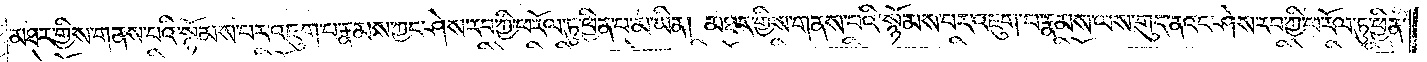མཐར་གྱིས་གནས་པའི་སྙོམས་པར་འཇུག་པ་རྣམས་ཀྱང་ཤེས་རབ་ཀྱི་ཕ་རོལ་ཏུ་ཕྱིན་པ་མ་ཡིན། མཐར་གྱིས་གནས་པའི་སྙོམས་པར་འཇུག་པ་རྣམས་ལས་གུད་ནའང་ཤེས་རབ་ཀྱི་ཕ་རོལ་ཏུ་ཕྱིན་
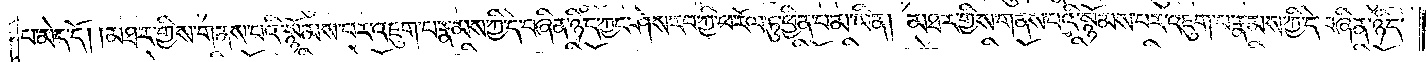པ་མེད་དོ། །མཐར་གྱིས་གནས་པའི་སྙོམས་པར་འཇུག་པ་རྣམས་ཀྱི་དེ་བཞིན་ཉིད་ཀྱང་ཤེས་རབ་ཀྱི་ཕ་རོལ་ཏུ་ཕྱིན་པ་མ་ཡིན། མཐར་གྱིས་གནས་པའི་སྙོམས་པར་འཇུག་པ་རྣམས་ཀྱི་དེ་བཞིན་ཉིད་
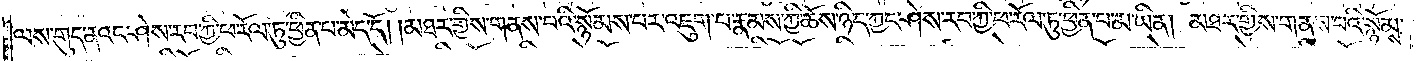ལས་གུད་ནའང་ཤེས་རབ་ཀྱི་ཕ་རོལ་ཏུ་ཕྱིན་པ་མེད་དོ། །མཐར་གྱིས་གནས་པའི་སྙོམས་པར་འཇུག་པ་རྣམས་ཀྱི་ཆོས་ཉིད་ཀྱང་ཤེས་རབ་ཀྱི་ཕ་རོལ་ཏུ་ཕྱིན་པ་མ་ཡིན། མཐར་གྱིས་གནས་པའི་སྙོམས་
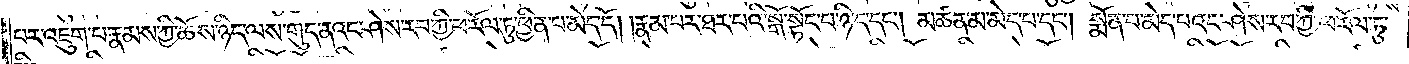པར་འཇུག་པ་རྣམས་ཀྱི་ཆོས་ཉིད་ལས་གུད་ནའང་ཤེས་རབ་ཀྱི་ཕ་རོལ་ཏུ་ཕྱིན་པ་མེད་དོ། །རྣམ་པར་ཐར་པའི་སྒོ་སྟོང་པ་ཉིད་དང༌། མཚན་མ་མེད་པ་དང༌། སྨོན་པ་མེད་པའང་ཤེས་རབ་ཀྱི་ཕ་རོལ་ཏུ་
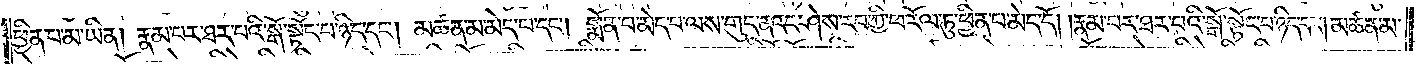ཕྱིན་པ་མ་ཡིན། རྣམ་པར་ཐར་པའི་སྒོ་སྟོང་པ་ཉིད་དང༌། མཚན་མ་མེད་པ་དང༌། སྨོན་པ་མེད་པ་ལས་གུད་ནའང་ཤེས་རབ་ཀྱི་ཕ་རོལ་ཏུ་ཕྱིན་པ་མེད་དོ། །རྣམ་པར་ཐར་པའི་སྒོ་སྟོང་པ་ཉིད་དང༌། མཚན་མ་
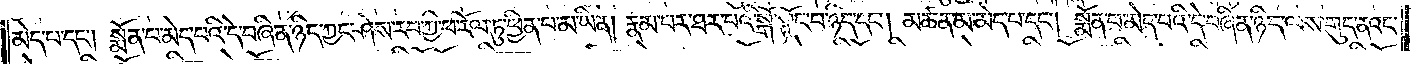མེད་པ་དང༌། སྨོན་པ་མེད་པའི་དེ་བཞིན་ཉིད་ཀྱང་ཤེས་རབ་ཀྱི་ཕ་རོལ་ཏུ་ཕྱིན་པ་མ་ཡིན། རྣམ་པར་ཐར་པའི་སྒོ་སྟོང་པ་ཉིད་དང༌། མཚན་མ་མེད་པ་དང༌། སྨོན་པ་མེད་པའི་དེ་བཞིན་ཉིད་ལས་གུད་ནའང་
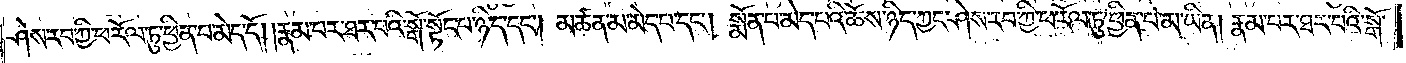ཤེས་རབ་ཀྱི་ཕ་རོལ་ཏུ་ཕྱིན་པ་མེད་དོ། །རྣམ་པར་ཐར་པའི་སྒོ་སྟོང་པ་ཉིད་དང༌། མཚན་མ་མེད་པ་དང༌། སྨོན་པ་མེད་པའི་ཆོས་ཉིད་ཀྱང་ཤེས་རབ་ཀྱི་ཕ་རོལ་ཏུ་ཕྱིན་པ་མ་ཡིན། རྣམ་པར་ཐར་པའི་སྒོ་
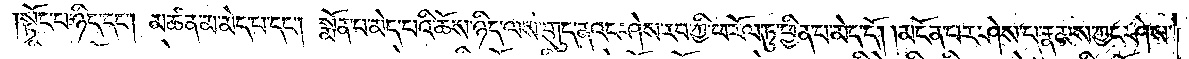སྟོང་པ་ཉིད་དང༌། མཚན་མ་མེད་པ་དང༌། སྨོན་པ་མེད་པའི་ཆོས་ཉིད་ལས་གུད་ནའང་ཤེས་རབ་ཀྱི་ཕ་རོལ་ཏུ་ཕྱིན་པ་མེད་དོ། །མངོན་པར་ཤེས་པ་རྣམས་ཀྱང་ཤེས་
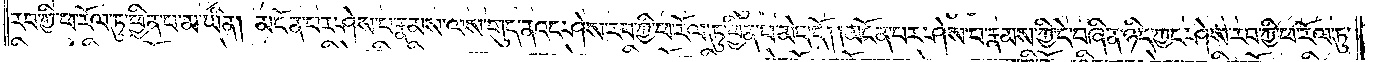རབ་ཀྱི་ཕ་རོལ་ཏུ་ཕྱིན་པ་མ་ཡིན། མངོན་པར་ཤེས་པ་རྣམས་ལས་གུད་ནའང་ཤེས་རབ་ཀྱི་ཕ་རོལ་ཏུ་ཕྱིན་པ་མེད་དོ། །མངོན་པར་ཤེས་པ་རྣམས་ཀྱི་དེ་བཞིན་ཉིད་ཀྱང་ཤེས་རབ་ཀྱི་ཕ་རོལ་ཏུ་
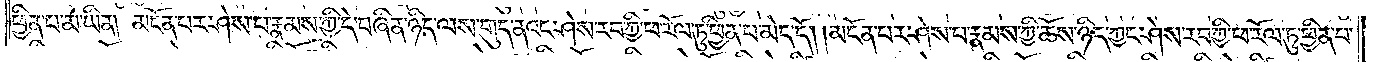ཕྱིན་པ་མ་ཡིན། མངོན་བར་ཤེས་པ་རྣམས་ཀྱི་དེ་བཞིན་ཉིད་ལས་གུད་ནའང་ཤེས་རབ་ཀྱི་ཕ་རོལ་ཏུ་ཕྱིན་པ་མེད་དོ། །མངོན་པར་ཤེས་པ་རྣམས་ཀྱི་ཆོས་ཉིད་ཀྱང་ཤེས་རབ་ཀྱི་ཕ་རོལ་ཏུ་ཕྱིན་པ་
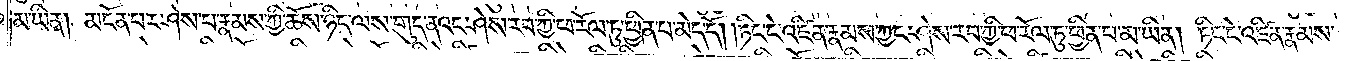མ་ཡིན། མངོན་པར་ཤེས་པ་རྣམས་ཀྱི་ཆོས་ཉིད་ལས་གུད་ནའང་ཤེས་རབ་ཀྱི་ཕ་རོལ་ཏུ་ཕྱིན་པ་མེད་དོ། །ཏིང་ངེ་འཛིན་རྣམས་ཀྱང་ཤེས་རབ་ཀྱི་ཕ་རོལ་ཏུ་ཕྱིན་པ་མ་ཡིན། ཏིང་ངེ་འཛིན་རྣམས་
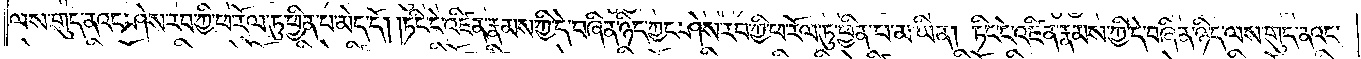ལས་གུད་ནའང་ཤེས་རབ་ཀྱི་ཕ་རོལ་ཏུ་ཕྱིན་པ་མེད་དོ། །ཏིང་ངེ་འཛིན་རྣམས་ཀྱི་དེ་བཞིན་ཉིད་ཀྱང་ཤེས་རབ་ཀྱི་ཕ་རོལ་ཏུ་ཕྱིན་པ་མ་ཡིན། ཏིང་ངེ་འཛིན་རྣམས་ཀྱི་དེ་བཞིན་ཉིད་ལས་གུད་ནའང་
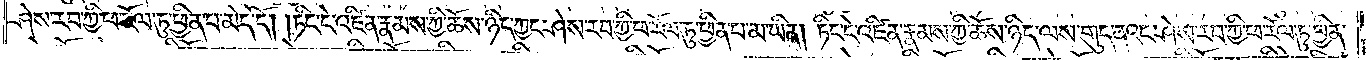ཤེས་རབ་ཀྱི་ཕ་རོལ་ཏུ་ཕྱིན་པ་མེད་དོ། །ཏིང་ངེ་འཛིན་རྣམས་ཀྱི་ཆོས་ཉིད་ཀྱང་ཤེས་རབ་ཀྱི་ཕ་རོལ་ཏུ་ཕྱིན་པ་མ་ཡིན། ཏིང་ངེ་འཛིན་རྣམས་ཀྱི་ཆོས་ཉིད་ལས་གུད་ནའང་ཤེས་རབ་ཀྱི་ཕ་རོལ་ཏུ་ཕྱིན་
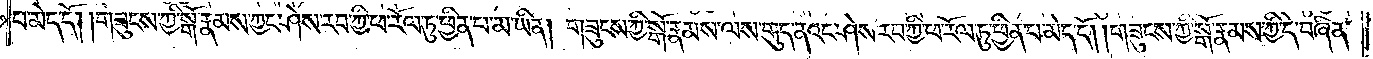པ་མེད་དོ། །གཟུངས་ཀྱི་སྒོ་རྣམས་ཀྱང་ཤེས་རབ་ཀྱི་ཕ་རོལ་ཏུ་ཕྱིན་པ་མ་ཡིན། གཟུངས་ཀྱི་སྒོ་རྣམས་ལས་གུད་ནའང་ཤེས་རབ་ཀྱི་ཕ་རོལ་ཏུ་ཕྱིན་པ་མེད་དོ། །གཟུངས་ཀྱི་སྒོ་རྣམས་ཀྱི་དེ་བཞིན་
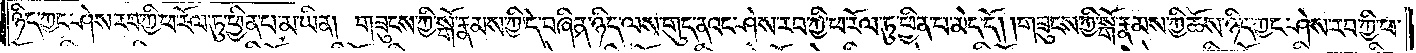ཉིད་ཀྱང་ཤེས་རབ་ཀྱི་ཕ་རོལ་ཏུ་ཕྱིན་པ་མ་ཡིན། གཟུངས་ཀྱི་སྒོ་རྣམས་ཀྱི་དེ་བཞིན་ཉིད་ལས་གུད་ནའང་ཤེས་རབ་ཀྱི་ཕ་རོལ་ཏུ་ཕྱིན་པ་མེད་དོ། །གཟུངས་ཀྱི་སྒོ་རྣམས་ཀྱི་ཆོས་ཉིད་ཀྱང་ཤེས་རབ་ཀྱི་ཕ་
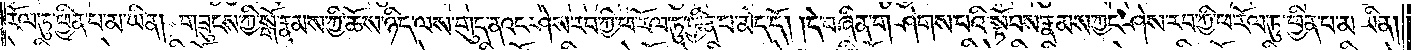རོལ་ཏུ་ཕྱིན་པ་མ་ཡིན། གཟུངས་ཀྱི་སྒོ་རྣམས་ཀྱི་ཆོས་ཉིད་ལས་གུད་ནའང་ཤེས་རབ་ཀྱི་ཕ་རོལ་ཏུ་ཕྱིན་པ་མེད་དོ། །དེ་བཞིན་གཤེགས་པའི་སྟོབས་རྣམས་ཀྱང་ཤེས་རབ་ཀྱི་ཕ་རོལ་ཏུ་ཕྱིན་པ་མ་ཡིན།
